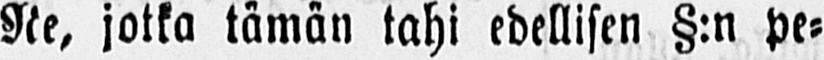Ne, jotka tämän tahi edellisen §:n pe-
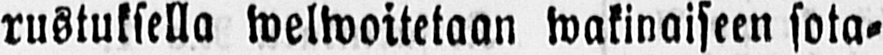rustuksella welwoitetaan wakinaiseen sota-
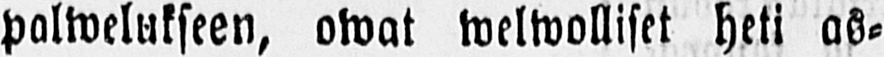palwelukseen, owat welwolliset heti as-
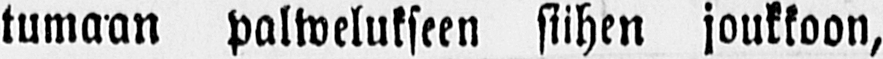tumaan palwelukseen siihen joukkoon,
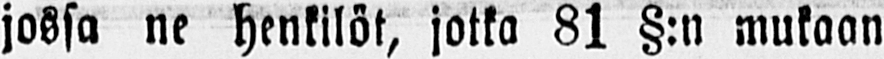jossa ne henkilöt, jotka 81 §:n mukaan
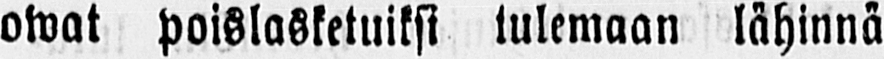owat poislasketuiksi tulemaan lähinnä
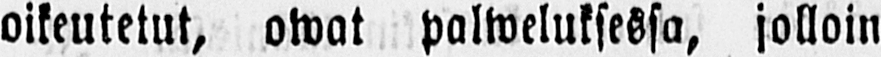oikeutetut, owat palweluksessa, jolloin
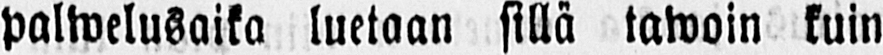palwelusaika luetaan sillä tawoin kuin
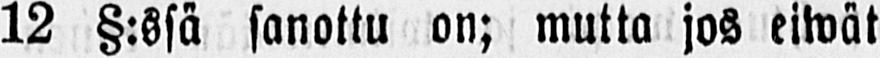12 §:ssä sanottu on; mutta jos eiwät
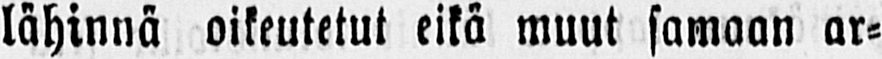lähinnä oikeutetut eikä muut samaan ar-
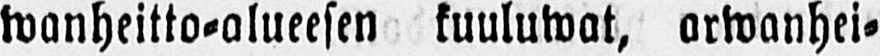wanheitto-alueesen kuuluwat, arwanhei-
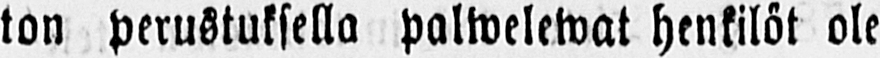ton perustuksella palwelewat henkilöt ole
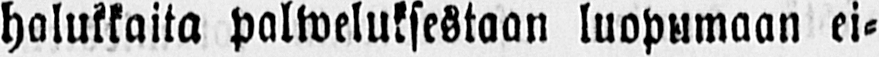halukkaita palweluksestaan luopumaan ei-
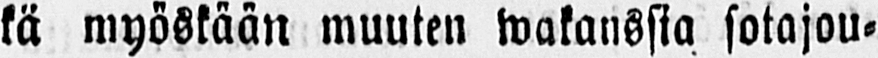kä myöskään muuten wakanssia sotajou-
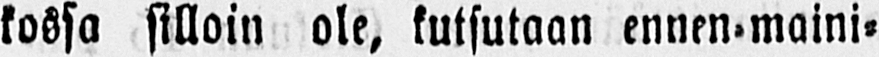kossa silloin ole, kutsutaan ennen-maini-
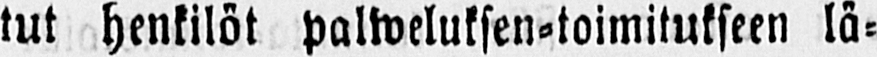tut henkilöt palweluksen-toimitukseen lä-
